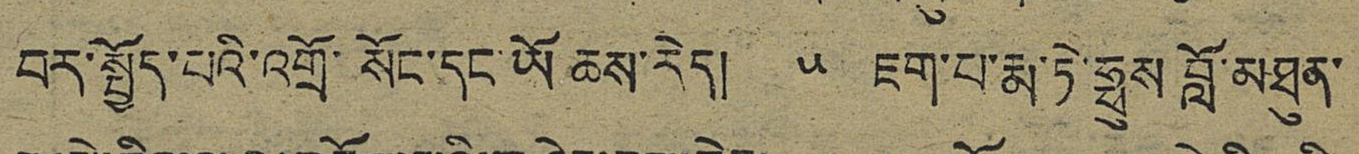བར་སྤྱོད་པའི་འགྲོ་སོང་དང་ཡོ ཆས་རེད། ༥ ཇག་པ་རྨ་ཏེ་ཧྥུས བློ་མཐུན་
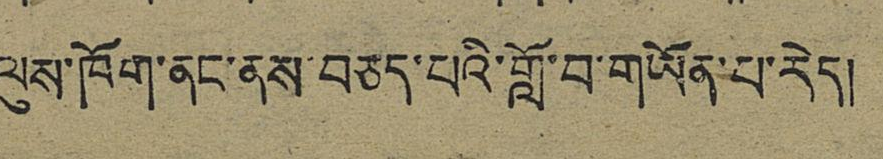ལུས་ཁོག་ནང་ནས་བཅད་པའི་གློ་བ་གཡོན་པ་རེད།
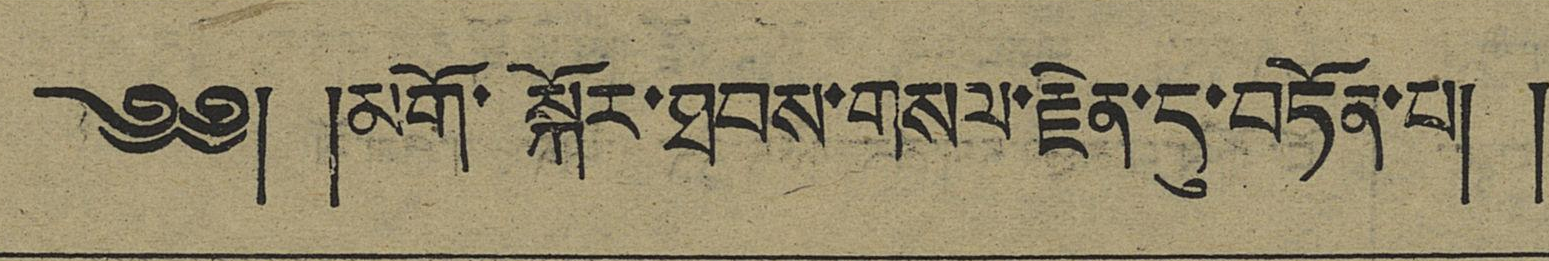༄༅། །མགོ་སྐོར་ཐབས་གསལ་རྗེན་དུ་བཏོན་པ། །
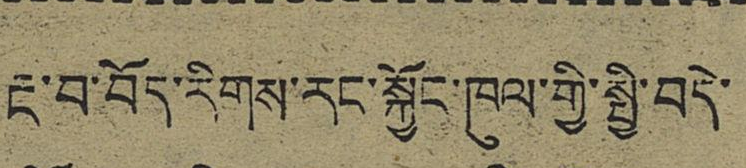རྔ་བ་བོད་རིགས་རང་སྐྱོང་ཁུལ་གྱི་སྤྱི་བདེ་
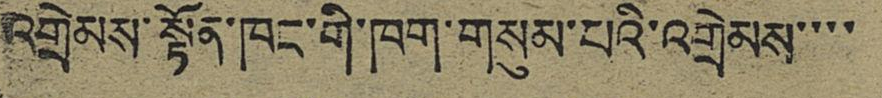འགྲེམས་སྟོན་ཁང་གི་ཁག་གསུམ་པའི་འགྲེམས་་་་
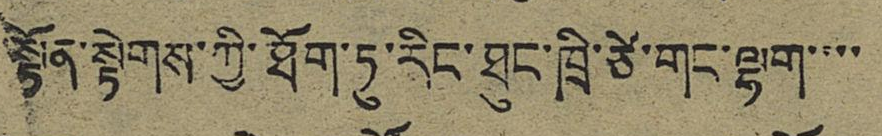སྟོན་སྟེགས་ཀྱི་ཐོག་ཏུ་རིང་ཐུང་ཁྲི་ཙེ་གང་ལྷག་་་་
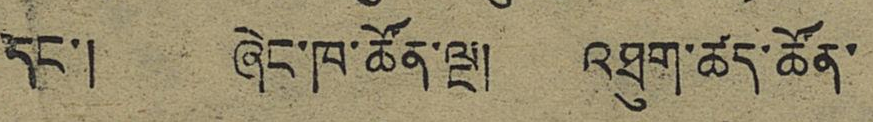དང་། ཞེང་ཁ་ཚོན་ལྔ། འཐུག་ཚད་ཚོན་
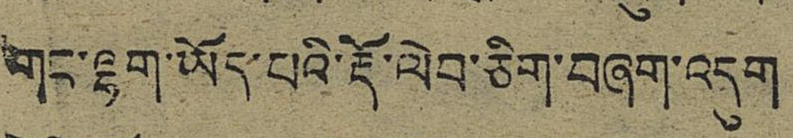གང་ལྷག་ཡོད་པའི་རྡོ་ལེབ་ཅིག་བཞག་འདུག
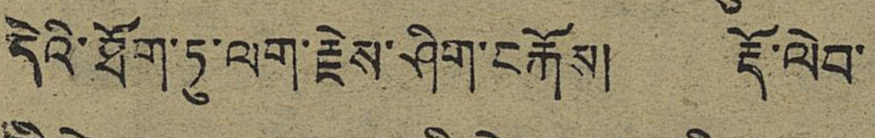དེའི་ཐོག་ཏུ་ལག་རྗེས་ཤིག་བརྐོས། རྡོ་ལེབ་
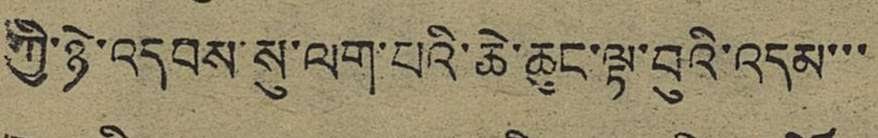ཀྱི་ཉེ་འདབས་སུ་ལག་པའི་ཆེ་ཆུང་ལྟ་བུའི་འདམ་་་
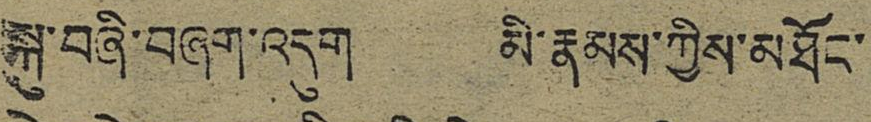སྐུ་བཞི་བཞག་འདུག མི་རྣམས་ཀྱིས་མཐོང་
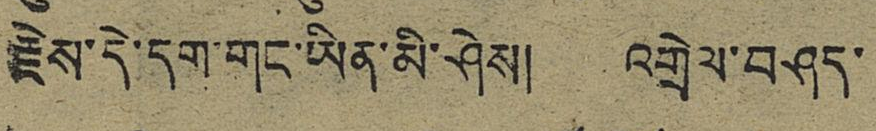རྗེས་དེ་དག་གང་ཡིན་མི་ཤེས། འགྲེལ་བཤད་
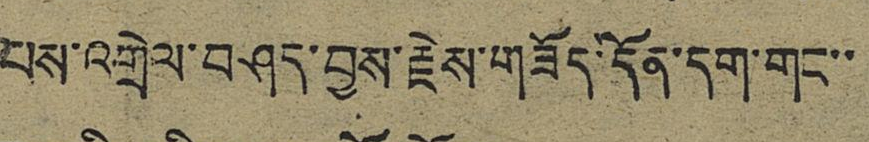པས་འགྲེལ་བཤད་བྱས་རྗེས་གཟོད་དོན་དག་གང་་
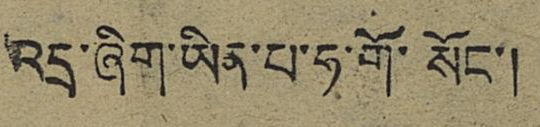འདྲ་ཞིག་ཡིན་པ་ཧ་གོ་སོང་།
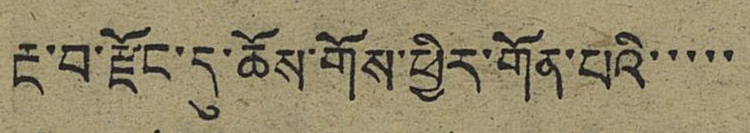རྔ་བ་རྫོང་དུ་ཆོས་གོས་ཕྱིར་གོན་པའི་་་་་
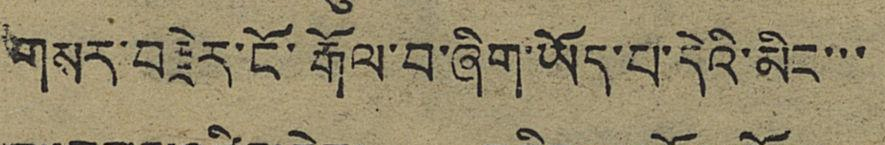གསར་བརྗེར་ངོ་རྒོལ་བ་ཞིག་ཡོད་པ་དེའི་མིང་་་
